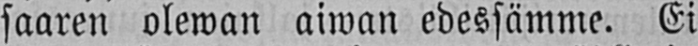saaren olewan aiwan edessämme. Ei
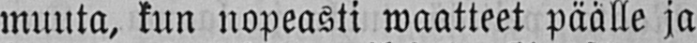muuta, kun nopeasti waatteet päälle ja
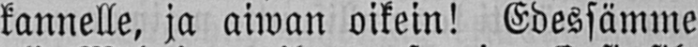kannelle, ja aiwan oikein! Edessämme
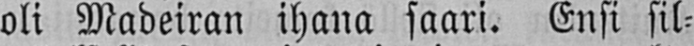oli Madeiran ihana saari. Ensi sil-
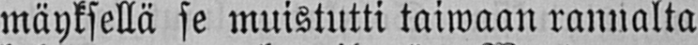mäyksellä se muistutti taiwaan rannalta
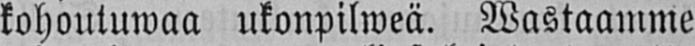kohoutuwaa ukonpilweä. Wastaamme
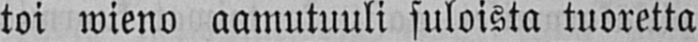toi wieno aamutuuli suloista tuoretta
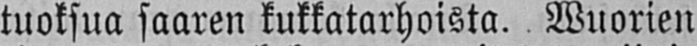tuoksua saaren kukkatarhoista. Wuorien
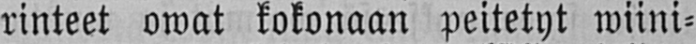rinteet owat kokonaan peitetyt wiini-
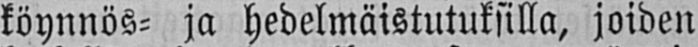köynnös- ja hedelmäistutuksilla, joiden
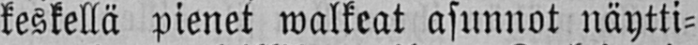keskellä pienet walkeat asunnot näytti-
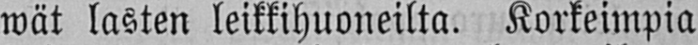wät lasten leikkihuoneilta. Korkeimpia
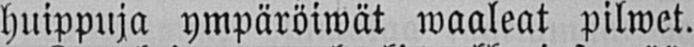huippuja ympäröiwät waaleat pilwet.
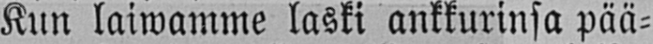Kun laiwamme laski ankkurinsa pää-
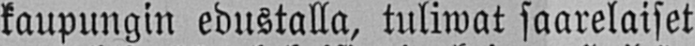kaupungin edustalla, tuiwat saarelaiset
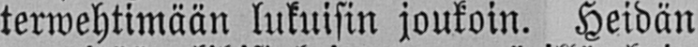terwehtimään lukuisin joukoin. Heidän
